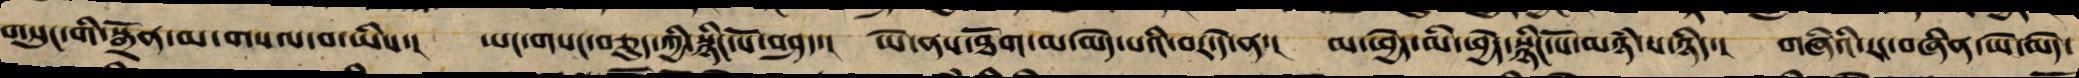གསུང་གི་སྒྲོན་མ་གསལ་བ་ཡིས་། ཡང་གསང་བཅུད་ཀྱི་སྙིང་པོ་བཤད་། ཡེ་གནས་ཐོག་མ་མེད་པའི་བར་དོ་ན་། མ་ཕྱེད་མི་ཕྱེད་སྙིང་པོ་མཉམ་པ་ཉིད་། གཞིའི་རང་བཞིན་ཡོད་མེད་
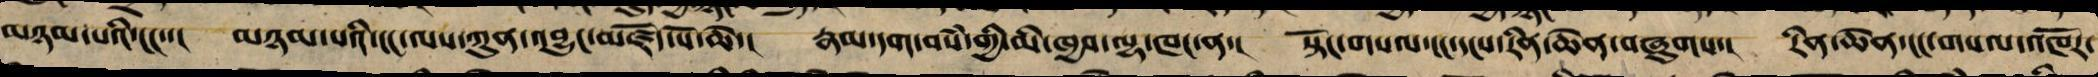མཉམ་པའི་ངང་་། མཉམ་པའི་ངང་ལས་ཀུན་འབྱུང་མཛོད་པོ་ཆེ་། རྣམ་དག་བསཾ་གྱིས་མི་ཁྱབ་ལྷ་ཁང་ན་། སྟོང་གསལ་ངང་དངས་རིན་ཆེན་བཞུགས་། རིན་ཆེན་ངང་གསལ་འཁོར་
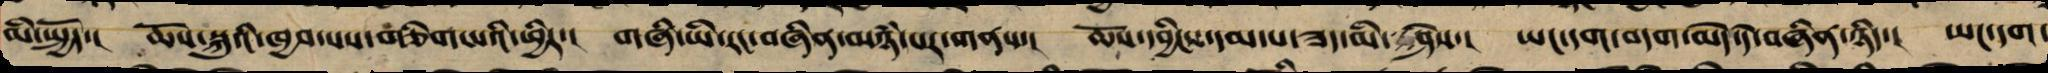ལཾ་སྤྱོད་། ཆོས་སྐུའི་ཁྱབ་པས་གཅིག་པའི་ཕྱིར་། གཞི་ཡི་རང་བཞིན་མཉཾ་པར་གནས་། ཆོས་དབྱིངས་དམ་པ་ཟད་མི་ཤེས་། ཡང་དག་བདག་མེད་དེ་བཞིན་ཉིད་། ཡང་དག་
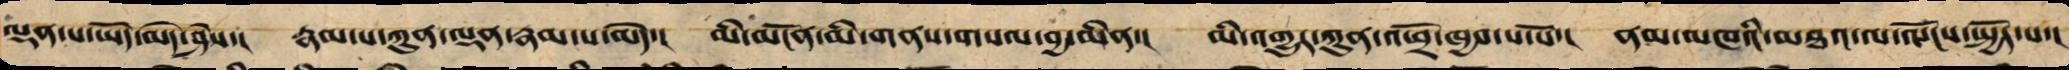ལྡན་པ་ཡོད་མེད་ཤེས་། རྣམ་པ་ཀུན་ལྡན་རྣམ་པ་མེད་། མི་མངོན་མི་གནས་གསལ་བྱ་མིན་། མི་འགྱུར་ཀུན་འགྲོ་ཁྱབ་པ་པོ་། ནམ་མཁའི་མཐའ་ལ་ལོངས་སྤྱོད་པ་།
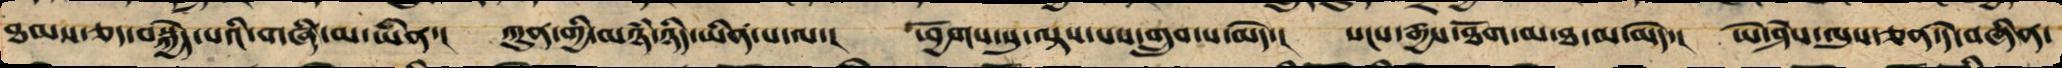ཐམས་ཅད་བསྐྱེད་པའི་གཞི་མ་ཡིན་། ཀུན་གཞི་མཉཾ་ཉིད་ཡིན་པ་ལ་། ཕྱོགས་སུ་ལྟས་པས་གྲུབ་པ་མེད་། སངས་རྒྱས་ཐོག་མ་ཐ་མ་མེད་། ཡེ་ཤེས་ལུས་ཅན་དེ་བཞིན་
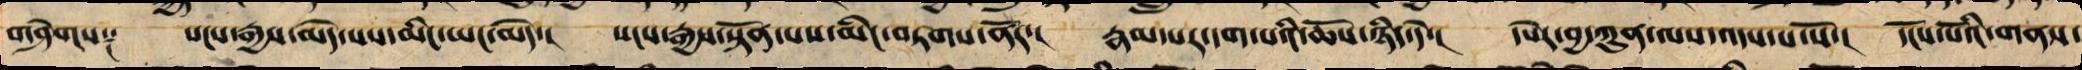གཤེགས༑ སངས་རྒྱས་མེད་པས་མིང་ཡང་མེད་། སངས་རྒྱས་སྟོན་པས་མིང་བཏགས་ནོར་། རྣམ་པར་དག་པའི་ཆོས་ཉིད་དེ་། དཔེར་བྱ་ཀུན་ལས་འདས་པ་པོ་། དངོས་པོའི་གནས་
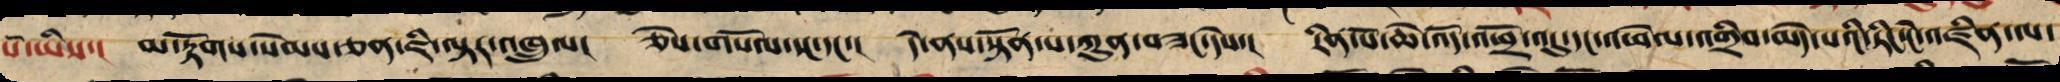པོ་ཡིས་། མ་རྟོགས་སེམས་ཅན་ཇི་ལྟར་འཁྲུལ་། ཅེས་གསོལ་པ་དང་། དེ་ནས་སྟོན་པ་ཀུན་བཟང་དེས་། རིན་པོ་ཆེ་འོད་འཕྲོ་འདུ་དང་འཕེལ་འགྲིབ་མེད་པའི་ཏིང་ངེ་འཛིན་ལ་
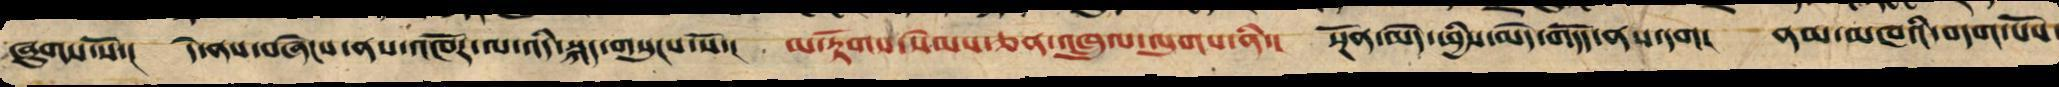ཞུགས་སོ་། དེ་ལས་བཞེངས་ནས་འཁོར་ལ་འདི་སྐད་གསུངས་སོ་། མ་རྟོགས་སེམས་ཅན་འཁྲུལ་ལུགས་ནི་། སྔོན་མེད་ཕྱིས་མེད་གདོད་ནས་དག། ནམ་མཁའི་བདག་པོས་
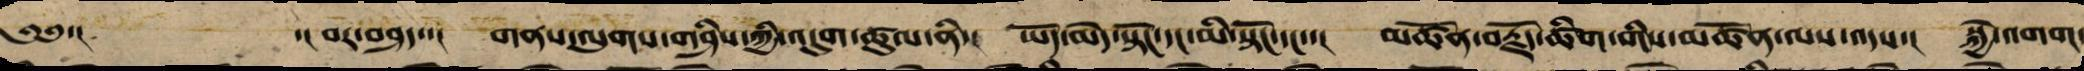༄༅་། ་།པར་བཤད་།་། གནས་ལུགས་གཤིས་ཀྱི་དུག་ཚུལ་ནི་། ཡོད་མེད་སྟོང་དང་མི་སྟོང་དང་། མཚོན་བརྗོད་ཚིག་གིས་མཚོན་ལས་འདས་། སྐྱེ་འགག་
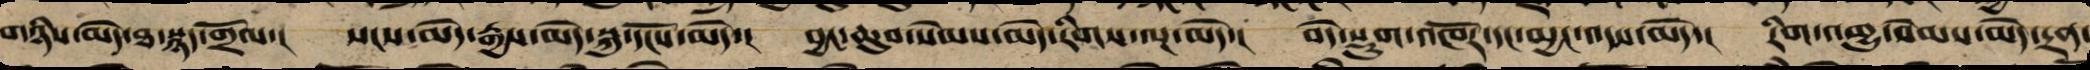གཉིས་མེད་ཐ་སྙད་གྲོལ་། སངས་མེད་རྒྱས་མེད་སྐུ་དངོས་མེད་། བྱང་ཆུབ་སེམས་མེད་རིགས་ལྔ་མེད་། བདེ་སྡུག་འཁོར་དང་མྱང་འདས་མེད་། རིག་འགྱུ་སེམས་མེད་དྲན་
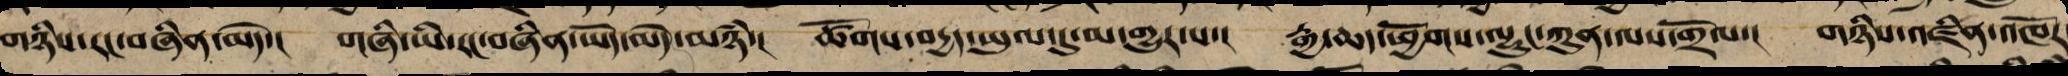གཉིས་རང་བཞིན་མེད་། གཞི་ཡི་རང་བཞིན་ཡོད་མེད་མཉཾ་། ཚོགས་བདྱད་ཡུལ་དུ་མ་གྱུར་པ་། རྒྱ་ཆད་ཕྱོགས་ལྷུང་ཀུན་ལས་གྲོལ་། གཉིས་འཛིན་འཁོར
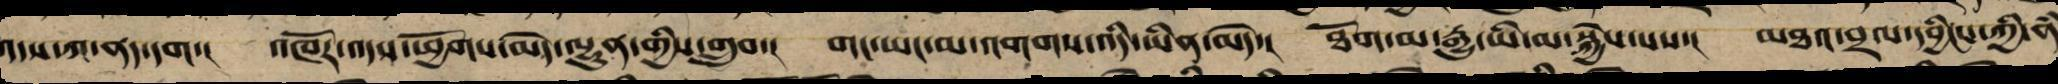འདས་ཀ་ནད་དག་། འཁོར་འདས་ཕྱོགས་མེད་ལྷུན་གྱིས་གྲུབ་། གང་ཡང་མ་འགགས་འདི་ཡིན་མེད་། ཐོག་མ་རྒྱུ་ཡི་མ་སྐྱེས་པས་། མཐའ་བྲལ་དབྱིངས་ཀྱི་ནཾ
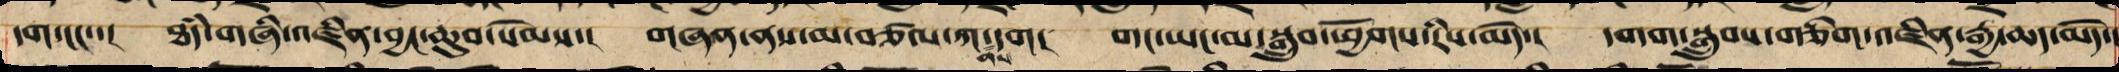དག་ངང་་། ཐཾད་གཞི་འཛིན་བྱང་ཆུབ་སེམས་། གཞན་ནས་མ་བཙལ་ཀ་དག། གང་ཡང་མ་སྒྲུ་ཕྱོགས་རིས་མེད་། དགག་སྒྲུབས་གཅིག་འཛིན་རྒྱ་ཆད་མེད་།
